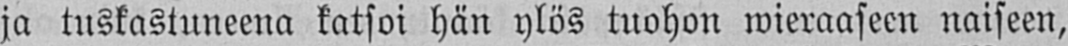ja tuskastuneena katsoi hän ylös tuohon wieraaseen naiseen,
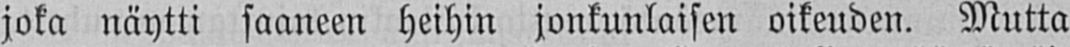joka näytti saaneen heihin jonkunlaisen oikeuden. Mutta
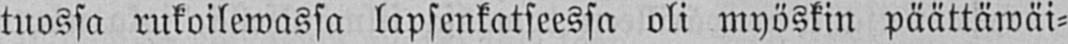tuossa rukoilewassa lapsenkatseessa oli myöskin päättäwäi-
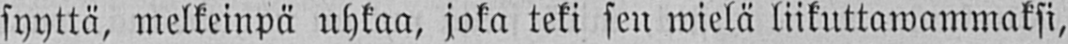syyttä, melkeinpä uhkaa, joka teki sen wielä liikuttawammaksi,
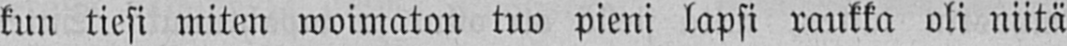kun tiesi miten woimaton tuo pieni lapsi raukka oli niitä
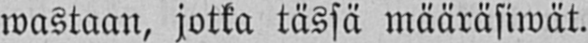wastaan, jotka tässä määräsiwät.
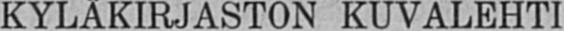KYLÄKIRJASTON KUVALEHTI
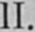II.
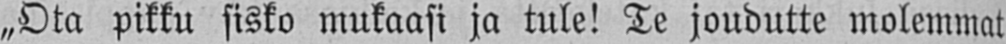„Ota pikku sisko mukaasi ja tule! Te joudutte molemmat
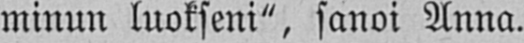minun luokseni", sanoi Anna.
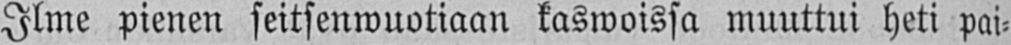Ilme pienen seitsenwuotiaan kaswoissa muuttui heti pai-
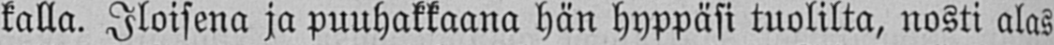kalla. Iloisena ja puuhakkaana hän hyppäsi tuolilta, nosti alas
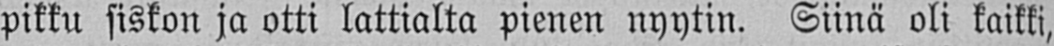pikku siskon ja otti lattialta pienen nyytin. Siinä oli kaikki,
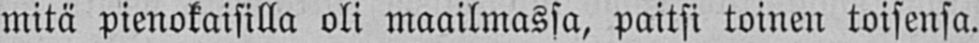mitä pienokaisilla oli maailmassa, paitsi toinen toisensa.
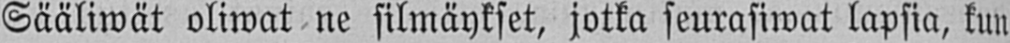Sääliwät oliwat ne silmäykset, jotka seurasiwat lapsia, kun
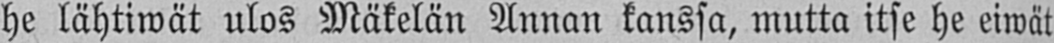he lähtiwät ulos Mäkelän Annan kanssa, mutta itse he eiwät
